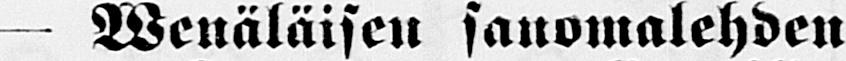— Wenäläisen sanomalehden
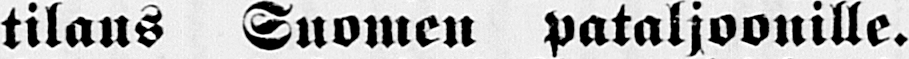tilaus Suomen pataljoonille.
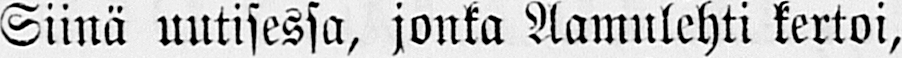Siinä uutisessa, jonka Aamulehti kertoi,
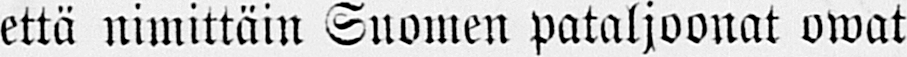että nimittäin Suomen pataljoonat owat
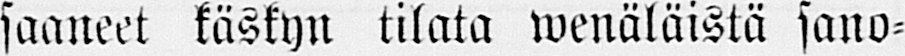saaneet käskyn tilata wenäläistä sano-
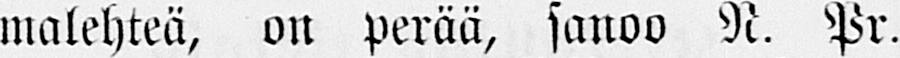malehteä, on perää, sanoo N. Pr.
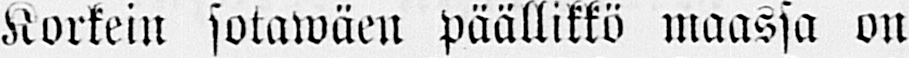Korkein sotawäen päällikkö maassa on
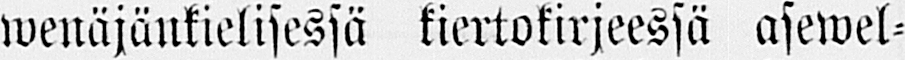wenäjänkielisessä kiertokirjeessä asewel-
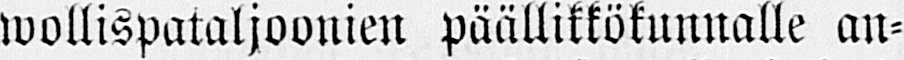wollispataljoonien päällikkökunnalle an-
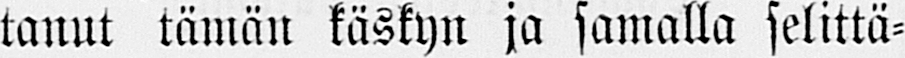tanut tämän käskyn ja samalla selittä-
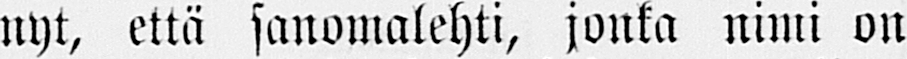nyt, että sanomalehti, jonka nimi on
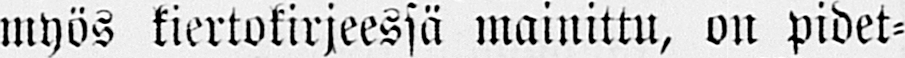myös kiertokirjeessä mainittu, on pidet-
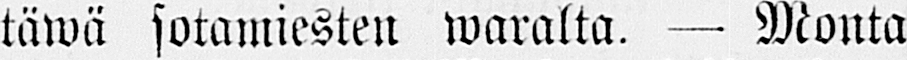täwä sotamiesten waralta. — Monta
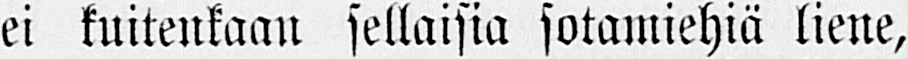ei kuitenkaan sellaisia sotamiehiä liene,
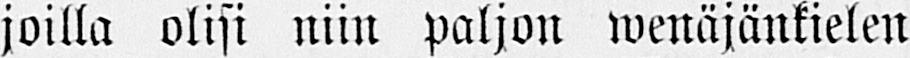joilla olisi niin paljon wenäjänkielen
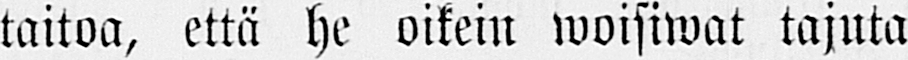taitoa, että he oikein woisiwat tajuta
